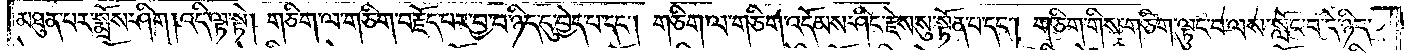མཐུན་པར་སྨྲོས་ཤིག །འདི་ལྟ་སྟེ། གཅིག་ལ་གཅིག་བརྗོད་པར་བྱ་བ་ཉིད་དུ་བྱེད་པ་དང༌། གཅིག་ལ་གཅིག་འདོམས་ཤིང་རྗེས་སུ་སྟོན་པ་དང༌། གཅིག་གིས་གཅིག་ལྟུང་བ་ལས་སློང་བ་དེ་ཉིད་
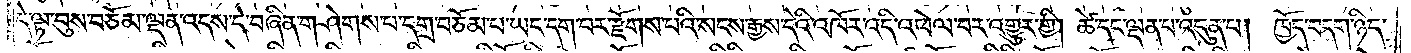དེ་ལྟ་བུས་བཅོམ་ལྡན་འདས་དེ་བཞིན་གཤེགས་པ་དགྲ་བཅོམ་པ་ཡང་དག་པར་རྫོགས་པའི་སངས་རྒྱས་དེའི་འཁོར་འདི་འཕེལ་བར་འགྱུར་གྱི། ཚེ་དང་ལྡན་པ་འདུན་པ། ཁྱོད་བདག་ཉིད་
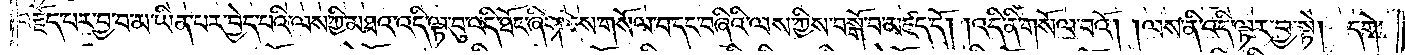བརྗོད་པར་བྱ་བ་མ་ཡིན་པར་བྱེད་པའི་ལས་ཀྱི་མཐའ་འདི་ལྟ་བུ་འདི་ཐོང་ཞིག་ཅེས་གསོལ་བ་དང་བཞིའི་ལས་ཀྱིས་བསྒོ་བ་མཛད་དོ། །འདི་ནི་གསོལ་བའོ། །ལས་ནི་འདི་ལྟར་བྱ་སྟེ། དགེ་
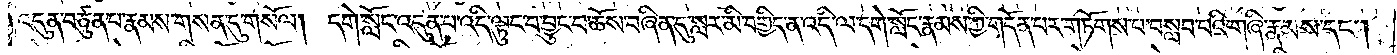འདུན་བཙུན་པ་རྣམས་གསན་དུ་གསོལ། དགེ་སློང་འདུན་པ་འདི་ལྟུང་བ་བྱུང་བ་ཆོས་བཞིན་དུ་སླར་མི་བགྱིད་ན་འདི་ལ་དགེ་སློང་རྣམས་ཀྱི་གདོན་པར་གཏོགས་པ་བསླབ་པའི་གཞི་རྣམས་དང༌།
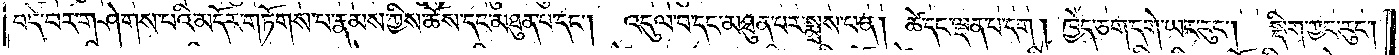བདེ་བར་གཤེགས་པའི་མདོར་གཏོགས་པ་རྣམས་ཀྱིས་ཆོས་དང་མཐུན་པ་དང༌། འདུལ་བ་དང་མཐུན་པར་སྨྲས་པ་ན། ཚེ་དང་ལྡན་པ་དག །ཁྱེད་ཅག་དགེ་ཡང་རུང༌། སྡིག་ཀྱང་རུང༌།
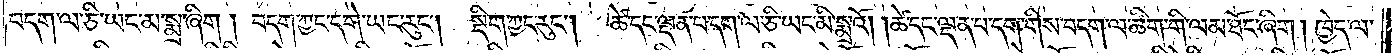བདག་ལ་ཅི་ཡང་མ་སྨྲ་ཞིག །བདག་ཀྱང་དགེ་ཡང་རུང༌། སྡིག་ཀྱང་རུང༌། ཚེ་དང་ལྡན་པ་དག་ལ་ཅི་ཡང་མི་སྨྲའོ། །ཚེ་དང་ལྡན་པ་དག་གིས་བདག་ལ་ཚིག་གི་ལམ་ཐོང་ཞིག །ཁྱེད་ལ་
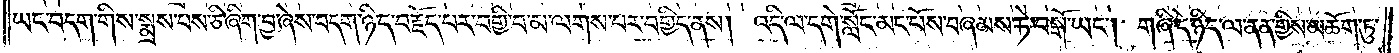ཡང་བདག་གིས་སྨྲས་པས་ཅི་ཞིག་བྱ་ཞེས་བདག་ཉིད་བརྗོད་པར་བགྱི་བ་མ་ལགས་པར་བགྱིད་ནས། འདི་ལ་དགེ་སློང་མང་པོས་བཞམས་ཏེ་བསྒོ་ཡང༌། གཞི་དེ་ཉིད་ལ་ནན་གྱིས་མཆོག་ཏུ་
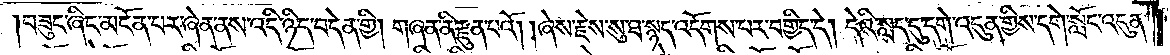བཟུང་ཞིང་མངོན་པར་ཞེན་ནས་འདི་ཉིད་བདེན་གྱི། གཞན་ནི་རྫུན་པའོ། །ཞེས་རྗེས་སུ་ཐ་སྙད་འདོགས་པར་བགྱིད་དེ། དེའི་སླད་དུ་དགེ་འདུན་གྱིས་དགེ་སློང་འདུན་
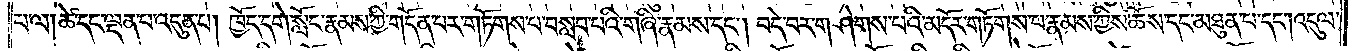པ་ལ། ཚེ་དང་ལྡན་པ་འདུན་པ། ཁྱོད་དགེ་སློང་རྣམས་ཀྱི་གདོན་པར་གཏོགས་པ་བསླབ་པའི་གཞི་རྣམས་དང༌། བདེ་བར་གཤེགས་པའི་མདོར་གཏོགས་པ་རྣམས་ཀྱིས་ཆོས་དང་མཐུན་པ་དང༌། འདུལ་
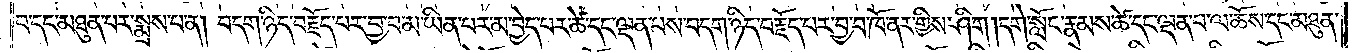བ་དང་མཐུན་པར་སྨྲས་པ་ན། བདག་ཉིད་བརྗོད་པར་བྱ་བ་མ་ཡིན་པར་མ་བྱེད་པར་ཚེ་དང་ལྡན་པས་བདག་ཉིད་བརྗོད་པར་བྱ་བ་ཁོ་ནར་གྱིས་ཤིག །དགེ་སློང་རྣམས་ཚེ་དང་ལྡན་པ་ལ་ཆོས་དང་མཐུན་
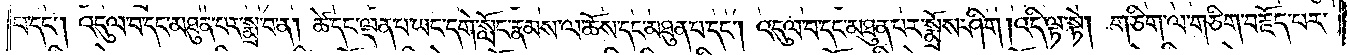པ་དང༌། འདུལ་བ་དང་མཐུན་པར་སྨྲ་བ་ན། ཚེ་དང་ལྡན་པ་ཡང་དགེ་སློང་རྣམས་ལ་ཆོས་དང་མཐུན་པ་དང༌། འདུལ་བ་དང་མཐུན་པར་སྨྲོས་ཤིག །འདི་ལྟ་སྟེ། གཅིག་ལ་གཅིག་བརྗོད་པར་
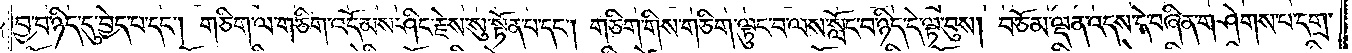བྱ་བ་ཉིད་དུ་བྱེད་པ་དང༌། གཅིག་ལ་གཅིག་འདོམས་ཤིང་རྗེས་སུ་སྟོན་པ་དང༌། གཅིག་གིས་གཅིག་ལྟུང་བ་ལས་སློང་བ་ཉིད་དེ་ལྟ་བུས། བཅོམ་ལྡན་འདས་དེ་བཞིན་གཤེགས་པ་དགྲ་
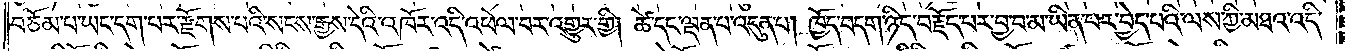བཅོམ་པ་ཡང་དག་པར་རྫོགས་པའི་སངས་རྒྱས་དེའི་འཁོར་འདི་འཕེལ་བར་འགྱུར་གྱི། ཚེ་དང་ལྡན་པ་འདུན་པ། ཁྱོད་བདག་ཉིད་བརྗོད་པར་བྱ་བ་མ་ཡིན་པར་བྱེད་པའི་ལས་ཀྱི་མཐའ་འདི་
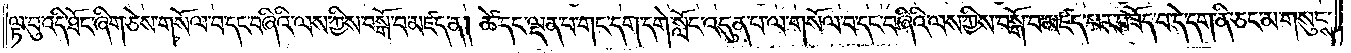ལྟ་བུ་འདི་ཐོང་ཞིག་ཅེས་གསོལ་བ་དང་བཞིའི་ལས་ཀྱིས་བསྒོ་བ་མཛད་ན། ཚེ་དང་ལྡན་པ་གང་དག་དགེ་སློང་འདུན་པ་ལ་གསོལ་བ་དང་བཞིའི་ལས་ཀྱིས་བསྒོ་བ་མཛད་པར་བཟོད་པ་དེ་དག་ནི་ཅང་མ་གསུངས་
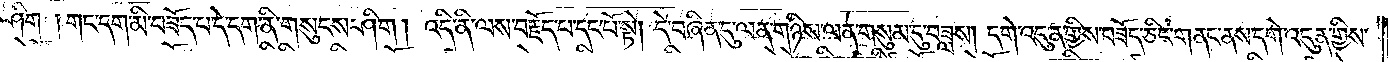ཤིག །གང་དག་མི་བཟོད་པ་དེ་དག་ནི་གསུངས་ཤིག། འདི་ནི་ལས་བརྗོད་པ་དང་པོ་སྟེ། དེ་བཞིན་དུ་ལན་གཉིས་ལན་གསུམ་དུ་བཟླས། དགེ་འདུན་གྱིས་བཟོད་ཅིང་གནང་ནས་དགེ་འདུན་གྱིས་
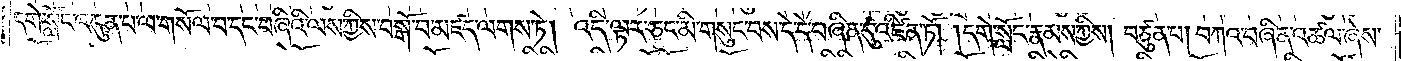དགེ་སློང་འདུན་པ་ལ་གསོལ་བ་དང་བཞིའི་ལས་ཀྱིས་བསྒོ་བ་མཛད་ལགས་ཏེ། འདི་ལྟར་ཅང་མི་གསུང་བས་དེ་དེ་བཞིན་དུ་འཛིན་ཏོ། །དགེ་སློང་རྣམས་ཀྱིས། བཙུན་པ། བཀའ་བཞིན་འཚལ་ཞེས་
